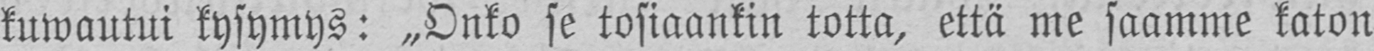kuwautui kysymys: „Onko se tosiaankin totta, että me saamme katon
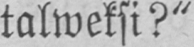talweksi?"
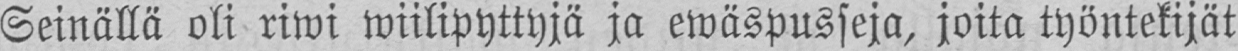Seinällä oli riwi wiilipyttyjä ja ewäspusseja, joita työntekijät
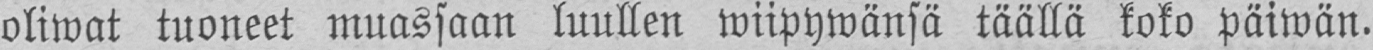oliwat tuoneet muassaan luullen wiipywänsä täällä koko päiwän.
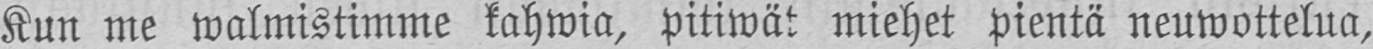Kun me walmistimme kahwia, pitiwät miehet pientä neuwottelua,
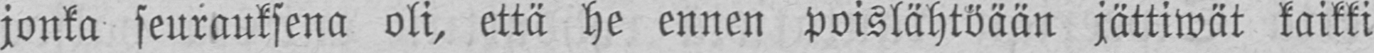jonka seurauksena oli, että he ennen poislähtöään jättiwät kaikki
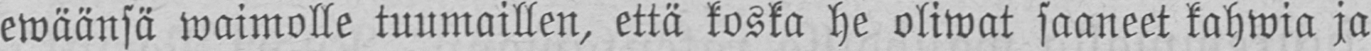ewäänsä waimolle tuumaillen, että koska he oliwat saaneet kahwia ja
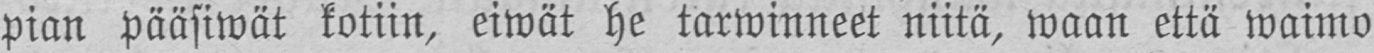pian pääsiwät kotiin, eiwät he tarwinneet niitä, waan että waimo
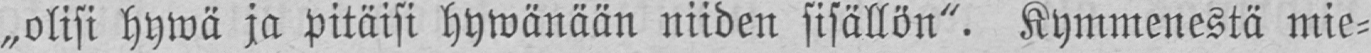„olisi hywä ja pitäisi hywänään niiden sisällön". Kymmenestä mie-
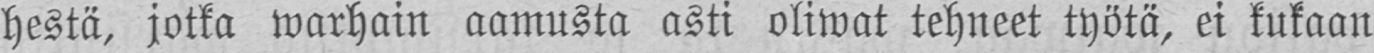hestä, jotka warhain aamusta asti oliwat tehneet työtä, ei kukaan
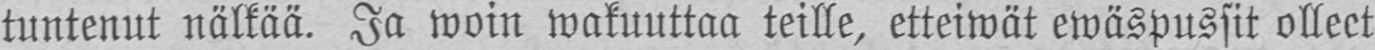tuntenut nälkää. Ja woin wakuuttaa teille, etteiwät ewäspussit olleet
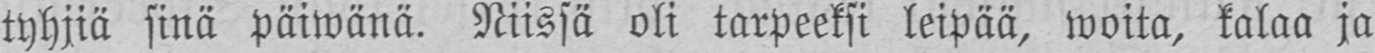tyhjiä sinä päiwänä. Niissä oli tarpeeksi leipää, woita, kalaa ja
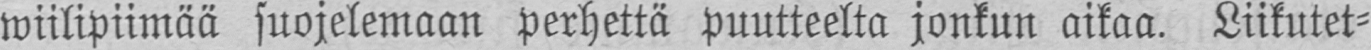wiilipiimää suojelemaan perhettä puutteelta jonkun aikaa. Liikutet-
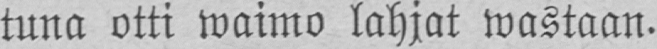tuna otti waimo lahjat wastaan.
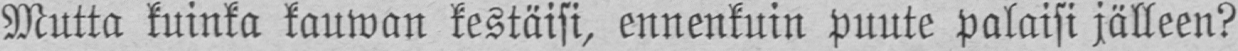Mutta kuinka kauwan kestäisi, ennenkuin puute palaisi jälleen?
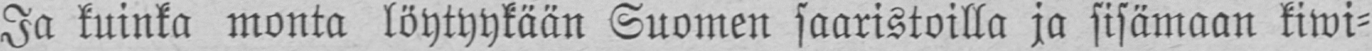Ja kuinka monta löytyykään Suomen saaristoilla ja sisämaan kiwi-
